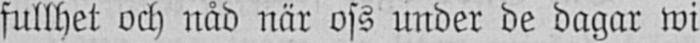fullhet och nåd när oss under de dagar wi
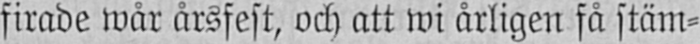firade wår årsfest, och att wi årligen få stäm-
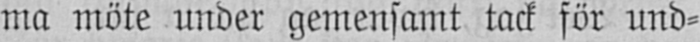ma möte under gemensamt tack för und-
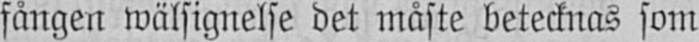fången wälsignelse det måste betecknas som
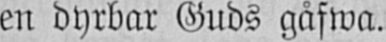en dyrbar Guds gåfwa.
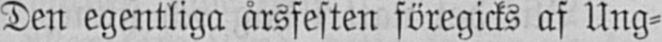Den egentliga årsfesten föregicks af Ung-
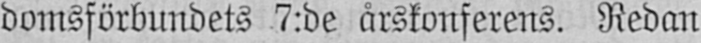domsförbundets 7:de årskonferens. Redan
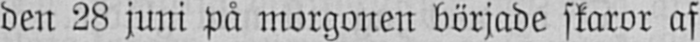den 28 juni på morgonen började skaror af
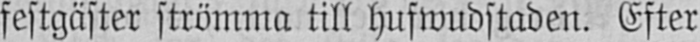festgäster strömma till hufwudstaden. Efter
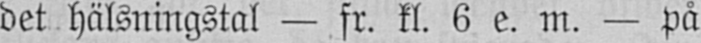det hälsningstal — fr. kl. 6 e. m. — på
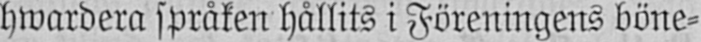hwardera språken hållits i Föreningens böne-
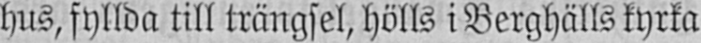hus, fyllda till trängsel, hölls i Berghälls kyrka
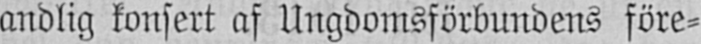andlig konsert af Ungdomsförbundens före-
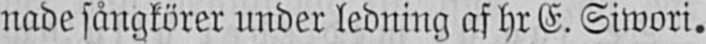nade sångkörer under ledning af hr E. Siwori.
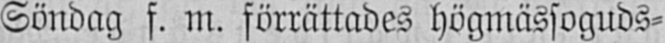Söndag f. m. förrättades högmässoguds-
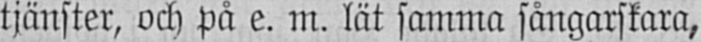tjänster, och på e. m. lät samma sångarskara,
